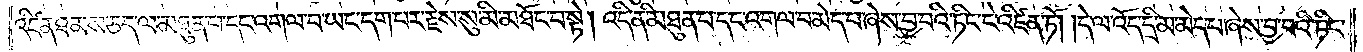འཛིན་ཐམས་ཅད་ལ་མཐུན་པ་དང་འགལ་བ་ཡང་དག་པར་རྗེས་སུ་མི་མཐོང་བ་སྟེ། འདི་ནི་མཐུན་པ་དང་འགལ་བ་མེད་པ་ཞེས་བྱ་བའི་ཏིང་ངེ་འཛིན་ཏོ། །དེ་ལ་འོད་དྲི་མ་མེད་པ་ཞེས་བྱ་བའི་ཏིང་
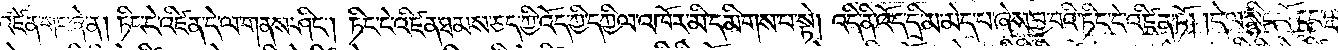ངེ་འཛིན་གང་ཞེ་ན། ཏིང་ངེ་འཛིན་དེ་ལ་གནས་ཤིང༌། ཏིང་ངེ་འཛིན་ཐམས་ཅད་ཀྱི་འོད་ཀྱི་དཀྱིལ་འཁོར་མི་དམིགས་པ་སྟེ། འདི་ནི་འོད་དྲི་མ་མེད་པ་ཞེས་བྱ་བའི་ཏིང་ངེ་འཛིན་ཏོ། །དེ་ལ་སྙིང་པོ་དང་ལྡན་
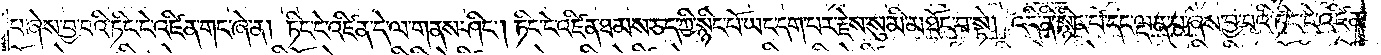པ་ཞེས་བྱ་བའི་ཏིང་ངེ་འཛིན་གང་ཞེ་ན། ཏིང་ངེ་འཛིན་དེ་ལ་གནས་ཤིང༌། ཏིང་ངེ་འཛིན་ཐམས་ཅད་ཀྱི་སྙིང་པོ་ཡང་དག་པར་རྗེས་སུ་མི་མཐོང་བ་སྟེ། འདི་ནི་སྙིང་པོ་དང་ལྡན་པ་ཞེས་བྱ་བའི་ཏིང་ངེ་འཛིན་
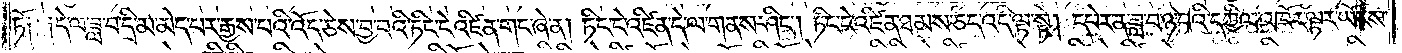ཏོ༑ ༑དེ་ལ་ཟླ་བ་དྲི་མ་མེད་པར་རྒྱས་པའི་འོད་ཅེས་བྱ་བའི་ཏིང་ངེ་འཛིན་གང་ཞེ་ན། ཏིང་ངེ་འཛིན་དེ་ལ་གནས་ཤིང༌། ཏིང་ངེ་འཛིན་ཐམས་ཅད་འདི་ལྟ་སྟེ། དཔེར་ན་ཟླ་བ་ཉ་བའི་དཀྱིལ་འཁོར་ལྟར་ཡོངས་
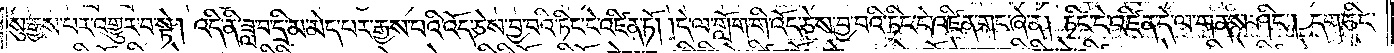སུ་རྒྱས་པར་འགྱུར་བ་སྟེ། འདི་ནི་ཟླ་བ་དྲི་མ་མེད་པར་རྒྱས་པའི་འོད་ཅེས་བྱ་བའི་ཏིང་ངེ་འཛིན་ཏོ། །དེ་ལ་གློག་གི་འོད་ཅེས་བྱ་བའི་ཏིང་ངེ་འཛིན་གང་ཞེ་ན། ཏིང་ངེ་འཛིན་དེ་ལ་གནས་ཤིང༌། དག་ཅིང་
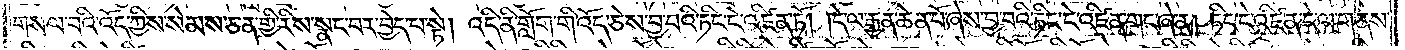གསལ་བའི་འོད་ཀྱིས་སེམས་ཅན་གྱི་རིས་སྣང་བར་བྱེད་པ་སྟེ། འདི་ནི་གློག་གི་འོད་ཅེས་བྱ་བའི་ཏིང་ངེ་འཛིན་ཏོ། །དེ་ལ་རྒྱན་ཆེན་པོ་ཞེས་བྱ་བའི་ཏིང་ངེ་འཛིན་གང་ཞེ་ན། ཏིང་ངེ་འཛིན་དེ་ལ་གནས་
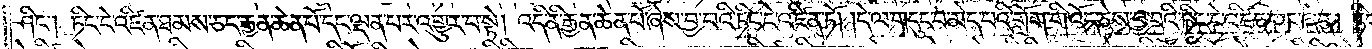ཤིང༌། ཏིང་ངེ་འཛིན་ཐམས་ཅད་རྒྱན་ཆེན་པོ་དང་ལྡན་པར་འགྱུར་པ་སྟེ། འདི་ནི་རྒྱན་ཆེན་པོ་ཞེས་བྱ་བའི་ཏིང་ངེ་འཛིན་ཏོ། །དེ་ལ་གདུང་བ་མེད་པའི་གློག་གི་འོད་ཅེས་བྱ་བའི་ཏིང་ངེ་འཛིན་གང་ཞེ་ན། ཏིང་
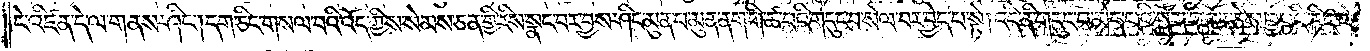ངེ་འཛིན་དེ་ལ་གནས་ཤིང༌། དག་ཅིང་གསལ་བའི་འོད་ཀྱིས་སེམས་ཅན་གྱི་རིས་སྣང་བར་བྱས་ཤིང་མུན་པ་མུན་ནག་གི་ཚ་བའི་གདུང་བ་སེལ་བར་བྱེད་པ་སྟེ། འདི་ནི་གདུང་བ་མེད་པའི་གློག་གི་འོད་ཅེས་བྱ་བའི་ཏིང་ངེ་
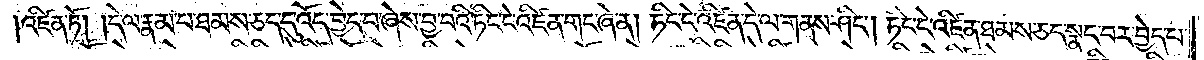འཛིན་ཏོ། །དེ་ལ་རྣམ་པ་ཐམས་ཅད་དུ་འོད་བྱེད་པ་ཞེས་བྱ་བའི་ཏིང་ངེ་འཛིན་གང་ཞེ་ན། ཏིང་ངེ་འཛིན་དེ་ལ་གནས་ཤིང༌། ཏིང་ངེ་འཛིན་ཐམས་ཅད་སྣང་བར་བྱེད་པ་
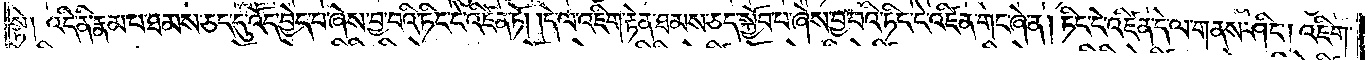སྟེ། འདི་ནི་རྣམ་པ་ཐམས་ཅད་དུ་འོད་བྱེད་པ་ཞེས་བྱ་བའི་ཏིང་ངེ་འཛིན་ཏོ། །དེ་ལ་འཇིག་རྟེན་ཐམས་ཅད་སྐྱོབ་པ་ཞེས་བྱ་བའི་ཏིང་ངེ་འཛིན་གང་ཞེ་ན། ཏིང་ངེ་འཛིན་དེ་ལ་གནས་ཤིང༌། འཇིག་
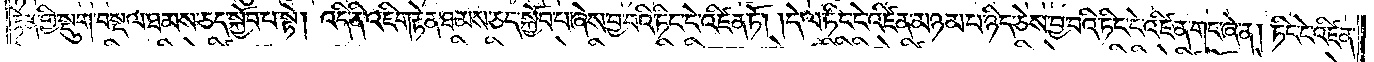རྟེན་གྱི་སྡུག་བསྔལ་ཐམས་ཅད་སྐྱོབ་པ་སྟེ། འདི་ནི་འཇིག་རྟེན་ཐམས་ཅད་སྐྱོབ་པ་ཞེས་བྱ་བའི་ཏིང་ངེ་འཛིན་ཏོ། །དེ་ལ་ཏིང་ངེ་འཛིན་མཉམ་པ་ཉིད་ཅེས་བྱ་བའི་ཏིང་ངེ་འཛིན་གང་ཞེ་ན། ཏིང་ངེ་འཛིན་
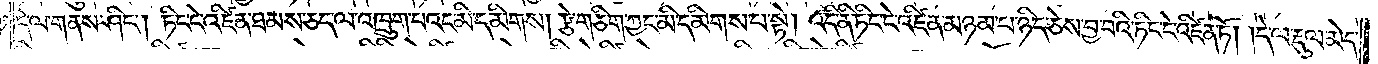དེ་ལ་གནས་ཤིང༌། ཏིང་ངེ་འཛིན་ཐམས་ཅད་ལ་འཁྲུག་པའང་མི་དམིགས། རྩེ་གཅིག་ཀྱང་མི་དམིགས་པ་སྟེ། འདི་ནི་ཏིང་ངེ་འཛིན་མཉམ་པ་ཉིད་ཅེས་བྱ་བའི་ཏིང་ངེ་འཛིན་ཏོ། །དེ་ལ་རྡུལ་མེད་
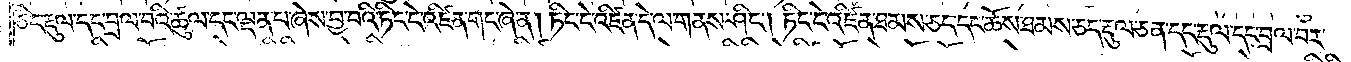ཅིང་རྡུལ་དང་བྲལ་བའི་ཚུལ་དང་ལྡན་པ་ཞེས་བྱ་བའི་ཏིང་ངེ་འཛིན་གང་ཞེ་ན། ཏིང་ངེ་འཛིན་དེ་ལ་གནས་ཤིང༌། ཏིང་ངེ་འཛིན་ཐམས་ཅད་དང་ཆོས་ཐམས་ཅད་རྡུལ་ཅན་དང་རྡུལ་དང་བྲལ་བར་
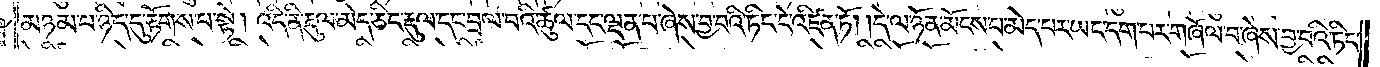མཉམ་པ་ཉིད་དུ་རྟོགས་པ་སྟེ། འདི་ནི་རྡུལ་མེད་ཅིང་རྡུལ་དང་བྲལ་བའི་ཚུལ་དང་ལྡན་པ་ཞེས་བྱ་བའི་ཏིང་ངེ་འཛིན་ཏོ། །དེ་ལ་ཉོན་མོངས་པ་མེད་པར་ཡང་དག་པར་གཞོལ་བ་ཞེས་བྱ་བའི་ཏིང་
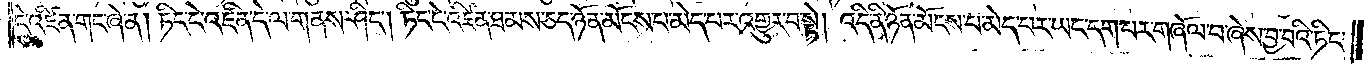ངེ་འཛིན་གང་ཞེ་ན། ཏིང་ངེ་འཛིན་དེ་ལ་གནས་ཤིང༌། ཏིང་ངེ་འཛིན་ཐམས་ཅད་ཉོན་མོངས་པ་མེད་པར་འགྱུར་བ་སྟེ། འདི་ནི་ཉོན་མོངས་པ་མེད་པར་ཡང་དག་པར་གཞོལ་བ་ཞེས་བྱ་བའི་ཏིང་
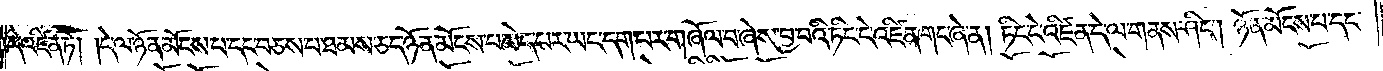ངེ་འཛིན་ཏོ། །དེ་ལ་ཉོན་མོངས་པ་དང་བཅས་པ་ཐམས་ཅད་ཉོན་མོངས་པ་མེད་པར་ཡང་དག་པར་གཞོལ་བ་ཞེས་བྱ་བའི་ཏིང་ངེ་འཛིན་གང་ཞེ་ན། ཏིང་ངེ་འཛིན་དེ་ལ་གནས་ཤིང༌། ཉོན་མོངས་པ་དང་
